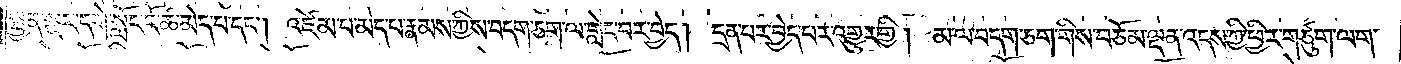སྤྱན་སྔར་དགེ་སློང་ངོ་ཚ་མེད་པ་དང༌། འཛེམ་པ་མེད་པ་རྣམས་ཀྱིས་བདག་ཅག་ལ་གླེང་བར་བྱེད། དྲན་པར་བྱེད་པར་འགྱུར་གྱི། མ་ལ་བདག་ཅག་གིས་བཅོམ་ལྡན་འདས་ཀྱི་ཕྱིར་གཙུག་ལག་
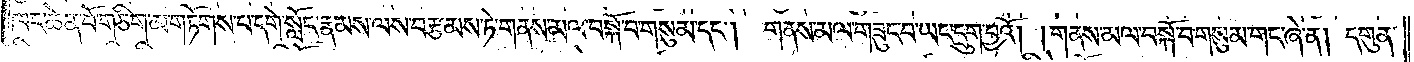ཁང་ཆེན་པོ་གཅིག་མ་གཏོགས་པ་དགེ་སློང་རྣམས་ལས་བརྩམས་ཏེ་གནས་མལ་བསྐོ་བ་གསུམ་དང༌། གནས་མལ་གཟུང་བ་ཡང་དྲུག་བྱའོ། །གནས་མལ་བསྐོ་བ་གསུམ་གང་ཞེ་ན། དགུན་
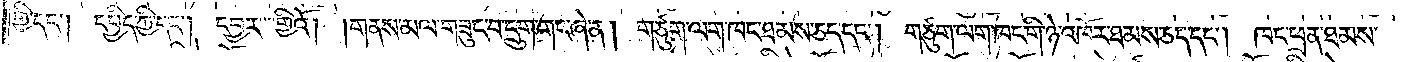གྱི་དང༌། དཔྱིད་ཀྱི་དང༌། དབྱར་གྱིའོ། །གནས་མལ་གཟུང་བ་དྲུག་གང་ཞེ་ན། གཙུག་ལག་ཁང་ཐམས་ཅད་དང༌། གཙུག་ལག་ཁང་གི་ཉེ་འཁོར་ཐམས་ཅད་དང༌། ཁང་ཕྲན་ཐམས་
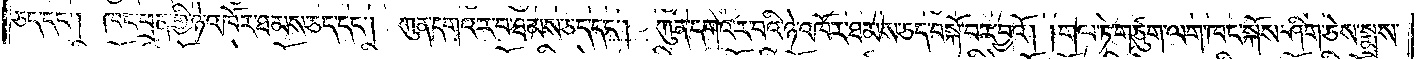ཅད་དང༌། ཁང་ཕྲན་གྱི་ཉེ་འཁོར་ཐམས་ཅད་དང༌། ཀུན་དགའ་ར་བ་ཐམས་ཅད་དང༌། ཀུན་དགའ་ར་བའི་ཉེ་འཁོར་ཐམས་ཅད་བསྐོ་བར་བྱའོ། །གལ་ཏེ་གཙུག་ལག་ཁང་སྐོས་ཤིག་ཅེས་སྨྲས་
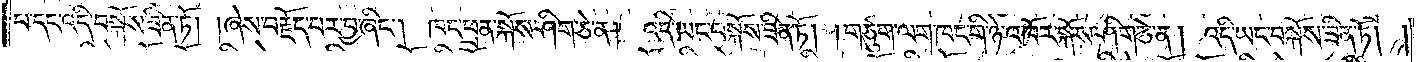པ་དང་འདི་བསྐོས་ཟིན་ཏོ། །ཞེས་བརྗོད་པར་བྱ་ཞིང༌། ཁང་ཕྲན་སྐོས་ཤིག་ཅེ་ན། འདི་ཡང་བསྐོས་ཟིན་ཏོ། །གཙུག་ལག་ཁང་གི་ཉེ་འཁོར་སྐོས་ཤིག་ཅེ་ན། འདི་ཡང་བསྐོས་ཟིན་ཏོ། །
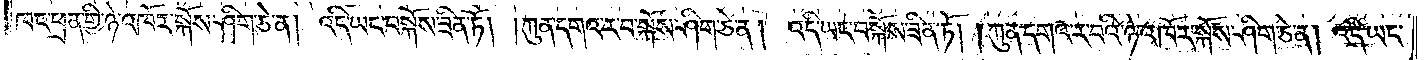ཁང་ཕྲན་གྱི་ཉེ་འཁོར་སྐོས་ཤིག་ཅེ་ན། འདི་ཡང་བསྐོས་ཟིན་ཏོ། །ཀུན་དགའ་ར་བ་སྐོས་ཤིག་ཅེ་ན། འདི་ཡང་བསྐོས་ཟིན་ཏོ། །ཀུན་དགའ་ར་བའི་ཉེ་འཁོར་སྐོས་ཤིག་ཅེ་ན། འདི་ཡང་
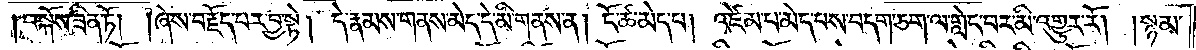བསྐོས་ཟིན་ཏོ། །ཞེས་བརྗོད་པར་བྱ་སྟེ། དེ་རྣམས་གནས་མེད་དེ་མི་གནས་ན། ངོ་ཚ་མེད་པ། འཛེམ་པ་མེད་པས་བདག་ཅག་ལ་གླེང་བར་མི་འགྱུར་རོ། །སྙམ་
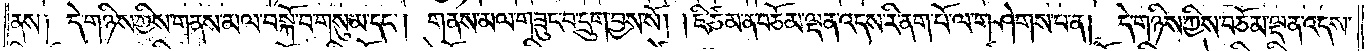ནས། དེ་གཉིས་ཀྱིས་གནས་མལ་བསྐོ་བ་གསུམ་དང༌། གནས་མལ་གཟུང་བ་དྲུག་བྱས་སོ། །ཇི་ཙམ་ན་བཅོམ་ལྡན་འདས་རི་ནག་པོ་ལ་གཤེགས་པ་ན། དེ་གཉིས་ཀྱིས་བཅོམ་ལྡན་འདས་
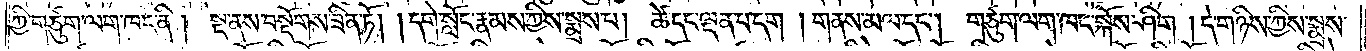ཀྱི་གཙུག་ལག་ཁང་ནི། སྔ་ནས་བསྡོགས་ཟིན་ཏོ། །དགེ་སློང་རྣམས་ཀྱིས་སྨྲས་པ། ཚེ་དང་ལྡན་པ་དག །གནས་མལ་དང༌། གཙུག་ལག་ཁང་སྐོས་ཤིག །དེ་གཉིས་ཀྱིས་སྨྲས་
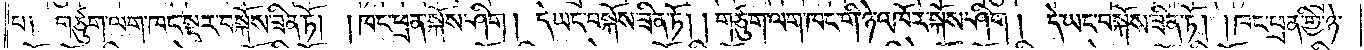པ༑ གཙུག་ལག་ཁང་སྔར་བསྐོས་ཟིན་ཏོ། །ཁང་ཕྲན་སྐོས་ཤིག །དེ་ཡང་བསྐོས་ཟིན་ཏོ། །གཙུག་ལག་ཁང་གི་ཉེ་འཁོར་སྐོས་ཤིག། དེ་ཡང་བསྐོས་ཟིན་ཏོ། །ཁང་ཕྲན་གྱི་ཉེ་
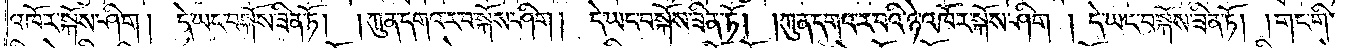འཁོར་སྐོས་ཤིག །དེ་ཡང་བསྐོས་ཟིན་ཏོ། །ཀུན་དགའ་ར་བ་སྐོས་ཤིག། དེ་ཡང་བསྐོས་ཟིན་ཏོ། །ཀུན་དགའ་ར་བའི་ཉེ་འཁོར་སྐོས་ཤིག། དེ་ཡང་བསྐོས་ཟིན་ཏོ། །གང་གི་
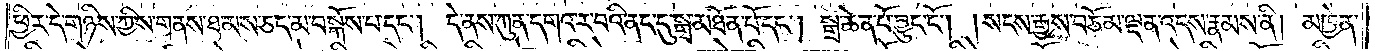ཕྱིར་དེ་གཉིས་ཀྱིས་གནས་ཐམས་ཅད་མ་བསྐོས་པ་དང༌། དེ་ནས་ཀུན་དགའ་ར་བའི་ནང་དུ་སྒྲ་མཐོན་པོ་དང༌། སྒྲ་ཆེན་པོ་བྱུང་ངོ༌། །སངས་རྒྱས་བཅོམ་ལྡན་འདས་རྣམས་ནི། མཁྱེན་
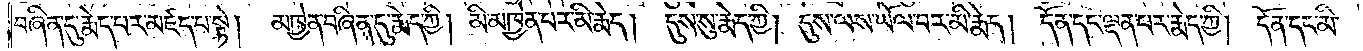བཞིན་དུ་རྨེད་པར་མཛད་པ་སྟེ། མཁྱེན་བཞིན་དུ་རྨེད་ཀྱི། མི་མཁྱེན་པར་མི་རྨེད། དུས་སུ་རྨེད་ཀྱི། དུས་ལས་ཡོལ་བར་མི་རྨེད། དོན་དང་ལྡན་པར་རྨེད་ཀྱི། དོན་དང་མི་
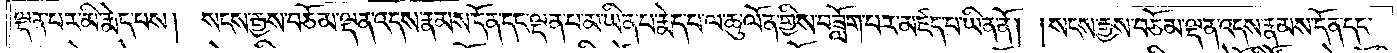ལྡན་པར་མི་རྨེད་པས། སངས་རྒྱས་བཅོམ་ལྡན་འདས་རྣམས་དོན་དང་ལྡན་པ་མ་ཡིན་པ་རྨེད་པ་ལ་ཆུ་ལོན་གྱིས་བཟློག་པར་མཛད་པ་ཡིན་ནོ། །སངས་རྒྱས་བཅོམ་ལྡན་འདས་རྣམས་དོན་དང་
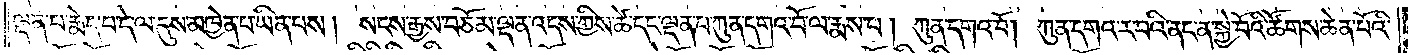ལྡན་པ་རྨེད་པ་དེ་ལ་དུས་མཁྱེན་པ་ཡིན་པས། སངས་རྒྱས་བཅོམ་ལྡན་འདས་ཀྱིས་ཚེ་དང་ལྡན་པ་ཀུན་དགའ་བོ་ལ་རྨས་པ། ཀུན་དགའ་བོ། ཀུན་དགའ་ར་བའི་ནང་ན་སྐྱེ་བོའི་ཚོགས་ཆེན་པོའི་
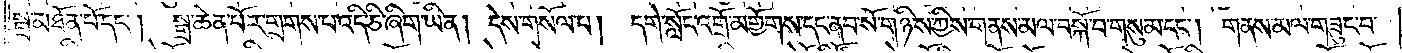སྒྲ་མཐོན་པོ་དང༌། སྒྲ་ཆེན་པོར་གྲགས་པ་འདི་ཅི་ཞིག་ཡིན། དེས་གསོལ་པ། དགེ་སློང་འགྲོ་མགྱོགས་དང་ནབ་སོ་གཉིས་ཀྱིས་གནས་མལ་བསྐོ་བ་གསུམ་དང༌། གནས་མལ་གཟུང་བ་
